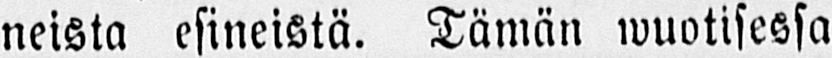neista esineistä. Tämän wuotisessa
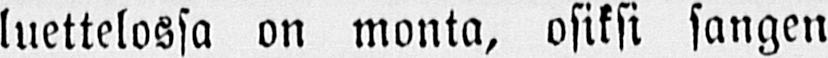luettelossa on monta, osiksi sangen
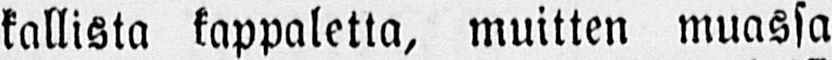kallista kappaletta, muitten muassa
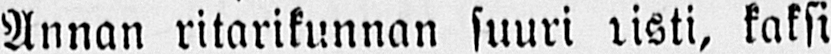Annan ritarikunnan suuri risti, kaksi
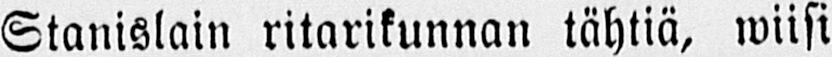Stanislain ritarikunnan tähtiä, wiisi
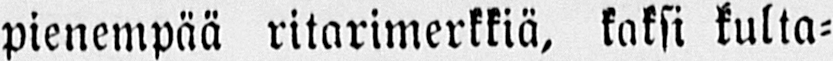pienempää ritarimerkkiä, kaksi kulta-
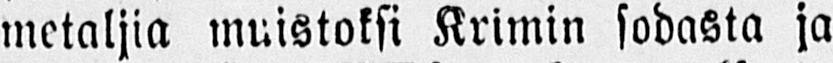metaljia muistoksi Krimin sodasta ja
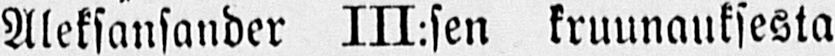Aleksansander III:sen kruunauksesta
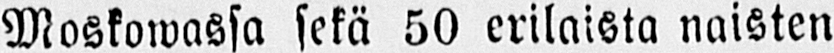Moskowassa sekä 50 erilaista naisten
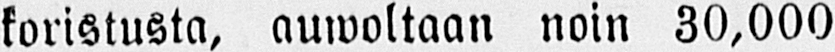koristusta, auwoltaan noin 30,000
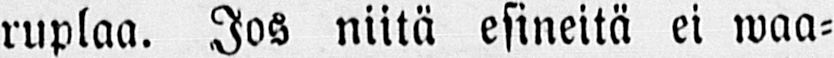ruplaa. Jos niitä esineitä ei waa-
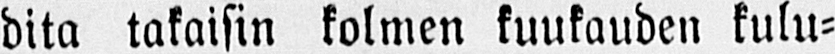dita takaisin kolmen kuukauden kulu-
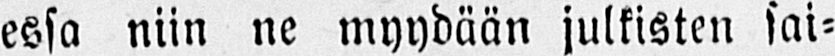essa niin ne myydään julkisten sai-
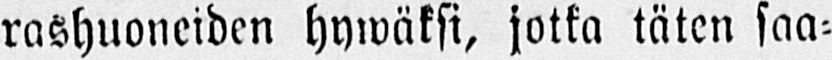rashuoneiden hywäksi, jotka täten saa-
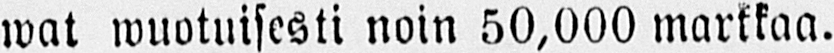wat wuotuisesti noin 50,000 markkaa.
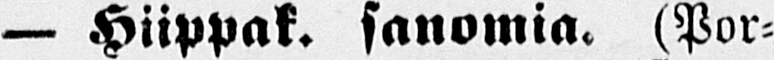— Hiippak. sanomia. (Por-
